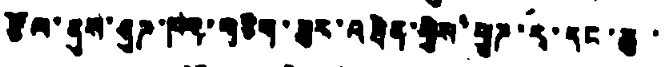རྩོལ་ནུས་ཤུཌ་ཁར་གཅིག་ཟུར་འཐེན་གྱིས་ཕྱུཌ་རྭ་དང་ཆུ་་
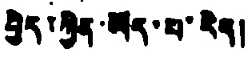བྱེད་ཀྱིན་ཡོད་པ་རེད།
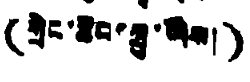(གྲེང་ཆིང་ཀྲུ་ཡིས།)
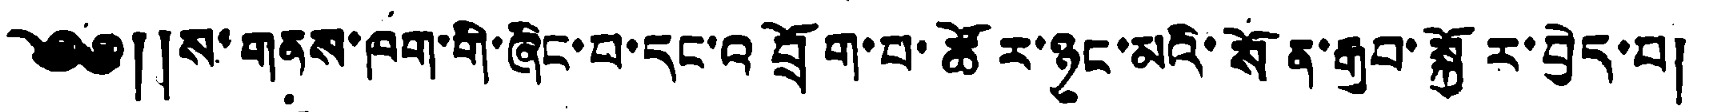༄༅། །ས་གནས་ཁག་གི་ཞིང་པ་དང་འབྲོག་བ་ཚོར་ཉུང་མའི་སོན་རྒྱབ་སྐྱོར་བྱེད་པ།
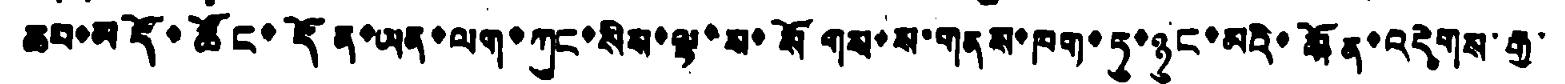ཆབ་མདོ་ཚོང་དོན་ཡན་ལག་ཀུང་སིས་ལྟ་ས་སོགས་ས་གནས་ཁག་ཏུ་ཉུང་མའི་སོན་འདེགས་རྒྱ་
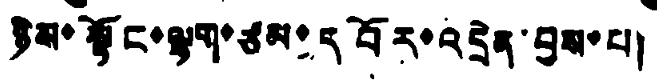ཉིས་སྟོང་ལྷག་ཙམ་དབོར་འདྲེན་བྱས་པ།
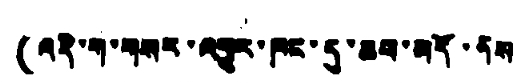(འདི་ག་གསར་འགྱུར་ཁང་དུ་ཆབ་མདོ་ནས
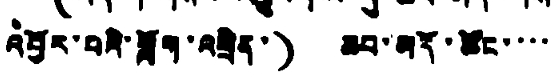འབྱོར་བའི་གློག་འཕྲིན་) ཆབ་མདོ་ཚོང་་་་་
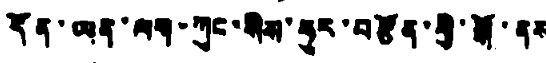དོན་ཨན་ལག་ཀུང་སིས་ཧུར་བརྩོན་གྱི་སྒོ་ནས
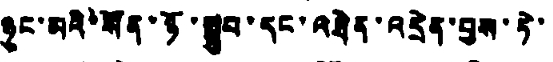ཉུང་མའི་སོན་ཉོ་སྒྲུབ་དང་འཐེན་འདྲེན་བྱས་ཏེ་
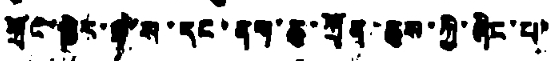གྲོང་ཁྱེར་ལྷ་ས་དང་ནག་ཆུ་ཀྲོན་ཆུས་ཀྱི་ཞིང་པ་
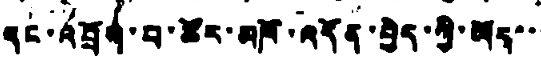དང་འབྲོག་བ་ཚོར་མཁོ་འདོན་བྱེད་ཀྱི་ཡོད་་་
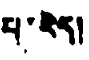པ་རེད།
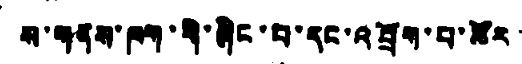ས་གནས་ཁག་གི་ཞིང་པ་དང་འབྲོག་པ་ཚོར་
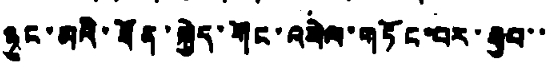ཉུང་མའི་ཐོན་སྐྱེད་གོང་འཕེལ་གཏོང་བར་རྒྱབ་་
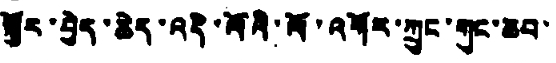སྐྱོར་བྱེད་ཆེད་འདི་ལོའི་ལོ་འགོར་ཀྲུང་གུང་ཆབ་
